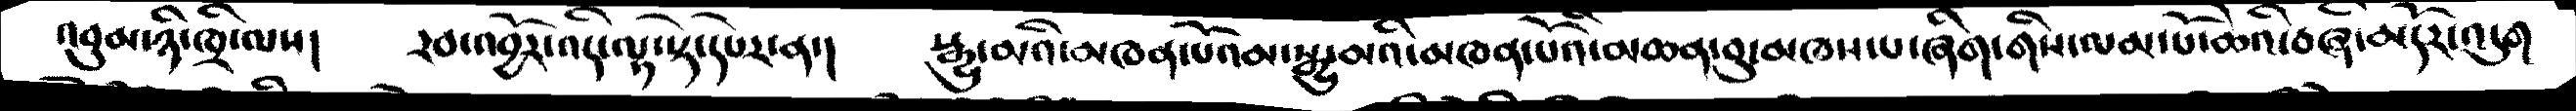འབུམ་ཉི་ཁྲི་ལས།     རབ་འབྱོར་འདི་ལྟ་སྟེ་དཔེར་ན་།    སྒྱུ་མའི་མཁན་པོའམ་སྒྱུ་མའི་མཁན་པོའི་མཆན་བུ་མཁས་པ་ཞིག་གིས་ལམ་པོ་ཆེའི་བཞི་མདོར་འདུག
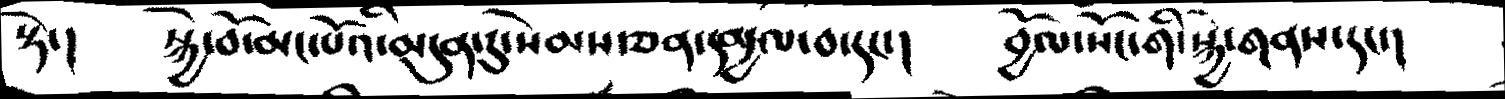སྟེ་།         སྐྱེ་བོ་མང་པོའི་མདུན་དུ་སེམས་ཅན་དམྱལ་བ་དང་།    བྱོལ་སོང་གི་སྐྱེ་གནས་དང་།
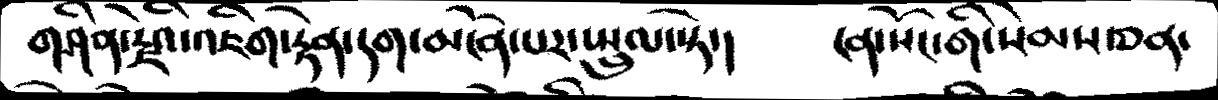གཤིན་རྗེའི་འཇིག་རྟེན་དག་མངོན་པར་ཡྲུལ་སྟེ་།     ངན་སོང་གི་སེམས་ཅན་
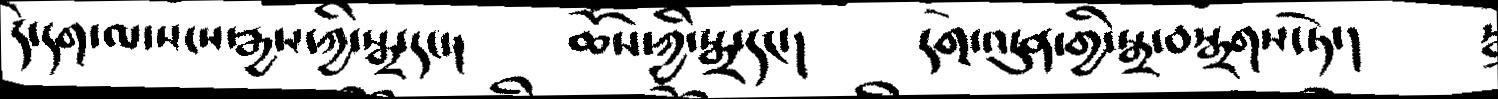དེ་དག་ལ་སངས་རྒྱས་ཀྱི་སྒྲ་དང་།    ཆོས་ཀྱི་སྒྲ་དང་།     དགེ་འདུན་གྱི་སྒྲ་བསྒྲགས་ཏེ་།
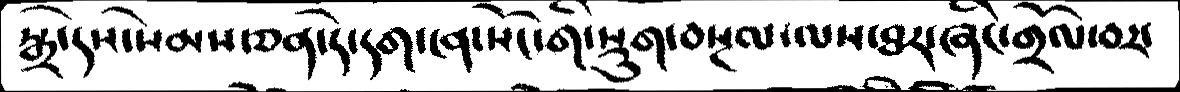སྒྲ་དེས་སེམས་ཅན་དེ་དག་ངན་སོང་གི་སྡུག་བསྔལ་ལས་ཐར་ཞིང་གྲོལ་བར་
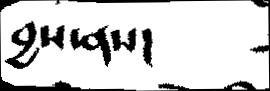བྱས་ནས།
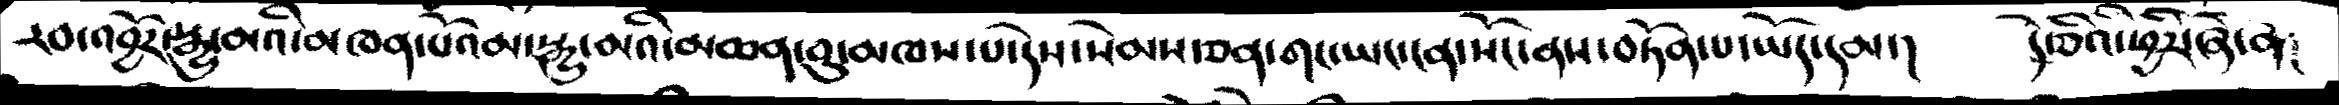རབ་འབྱོར་སྒྱུ་མའི་མཁན་པོའམ་སྒྱུ་མའི་མཆན་བུ་མཁས་པ་དེས་སེམས་ཅན་གང་ཡང་ངན་སོང་ནས་བཏོན་པ་ཡོད་དམ་།    དེ་ཅིའི་ཕྱིར་ཞེ་ན།
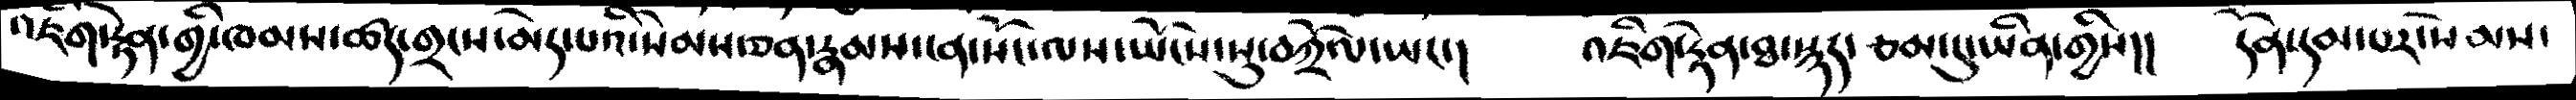འཇིག་རྟེན་གྱི་ཁམས་ཚད་གྲངས་མེད་པའི་སེམས་ཅན་རྣམས་ངན་སོང་ལས་ཡོངས་སུ་བཀྲོལ་ཡང་།     འཇིག་རྟེན་ཐ་སྙད་ཙམ་དུ་ཡིན་གྱིས།།   དོན་དམ་པར་སེམས་
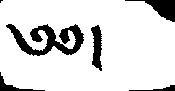༄༅།
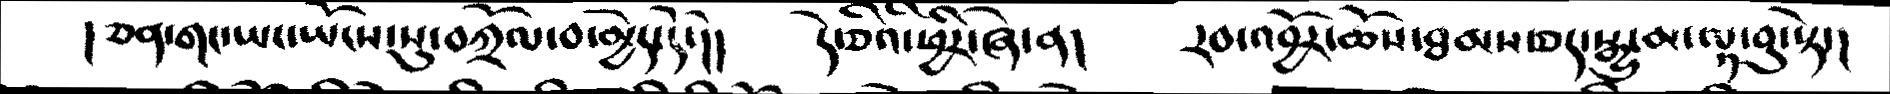།ཅན་གང་ཡང་ཡོངས་སུ་བཀྲོལ་བ་མྱེད་དེ་།།    དེ་ཅིའི་ཕྱིར་ཞེ་ན།    རབ་འབྱོར་ཆོས་ཐམས་ཅད་སྒྱུ་མ་ལྟ་བུ་སྟེ་།
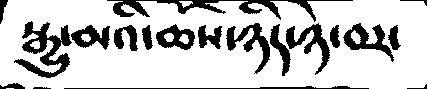སྒྱུ་མའི་ཆོས་ཉིད་ཉེ་བར་
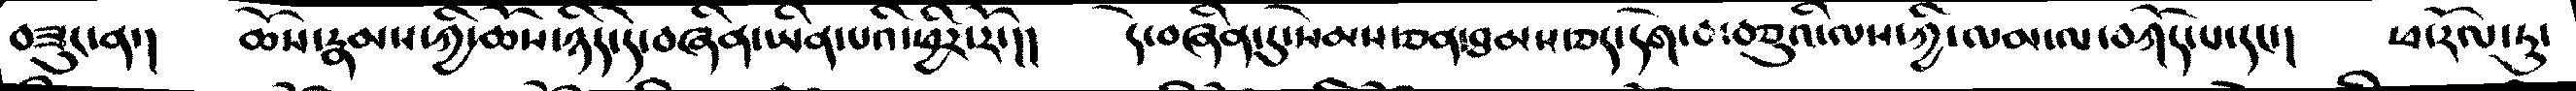བཟུང་ན་།    ཆོས་རྣམས་ཀྱི་ཆོས་ཉིད་དེ་བཞིན་ཡིན་པའི་ཕྱིར་རོ་།།    དེ་བཞིན་དུ་སེམས་ཅན་ཐམས་ཅད་དགེ་བ་བཅུའི་ལས་ཀྱི་ལམ་ལ་བཀོད་པ་དང་།   ཕ་རོལ་ཏུ་
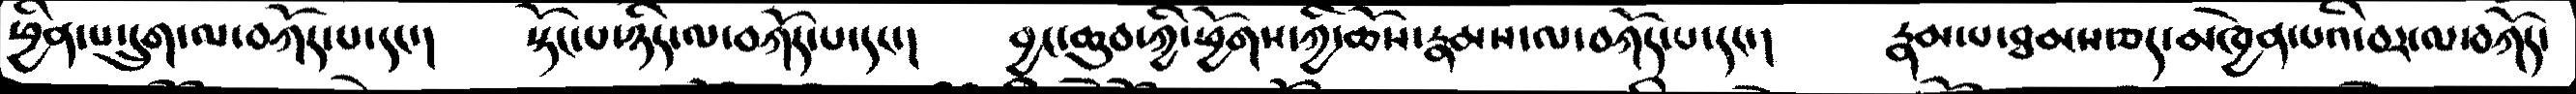ཕྱིན་པ་དྲུག་ལ་བཀོད་པ་དང་།   སྟོང་པ་ཉིད་ལ་བཀོད་པ་དང་།   བྱང་ཆུབ་ཀྱི་ཕྱོགས་ཀྱི་ཆོས་རྣམས་ལ་བཀོད་པ་དང་།    རྣམ་པ་ཐམས་ཅད་མཁྱེན་པའི་བར་ལ་བཀོད་
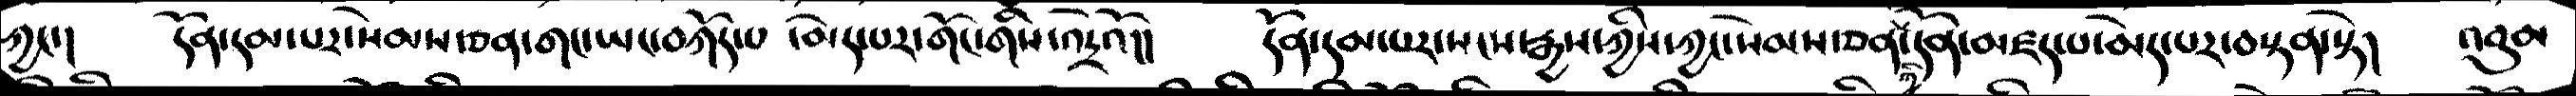ཀྱང་།  དོན་དམ་པར་སེམས་ཅན་གང་ཡང་བཀོད་པ་མེད་པར་གོང་གིས་འདྲེའོ།།   དོན་དམ་པར་སངས་རྒྱས་ཀྱིས་ཀྱང་སེམས་ཅན་ཀྱི་དོན་མཛད་པ་མེད་པར་བསྟན་སྟེ།   འབུམ
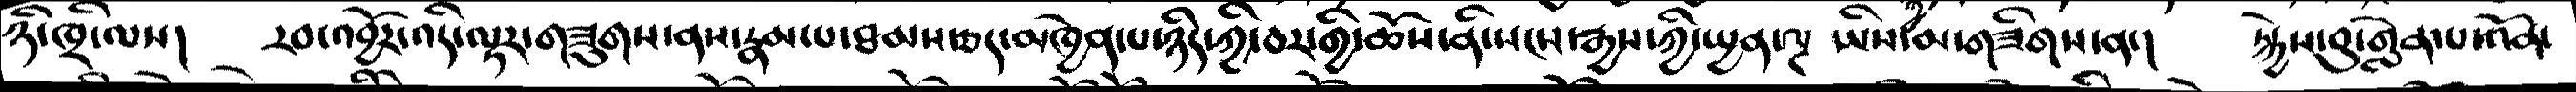ཉི་ཁྲི་ལས།  རབ་འབྱོར་འདི་ལྟར་གཟུགས་ནས་རྣམ་པ་ཐམས་ཅད་མཁྱེན་པ་ཉིད་ཀྱི་བར་གྱི་ཆོས་ནི་སངས་རྒྱས་ཀྱི་སྤྱན་ལྔ  ཡིས་མ་གཟིགས་ན་།   སྐྱེས་བུ་གླེན་པ་འོན་
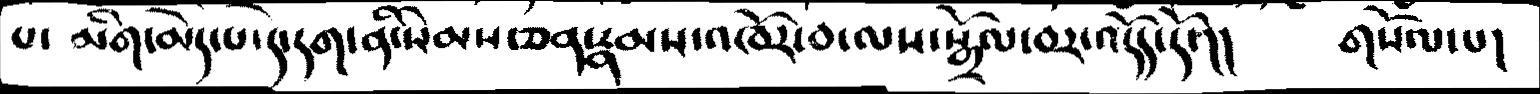པ་  མིག་མེད་པ་དེ་དག་ནི་སེམས་ཅན་རྣམས་འཁོར་བ་ལས་སྒྲོལ་བར་འདོད་དོ་།།          གསོལ་པ།
